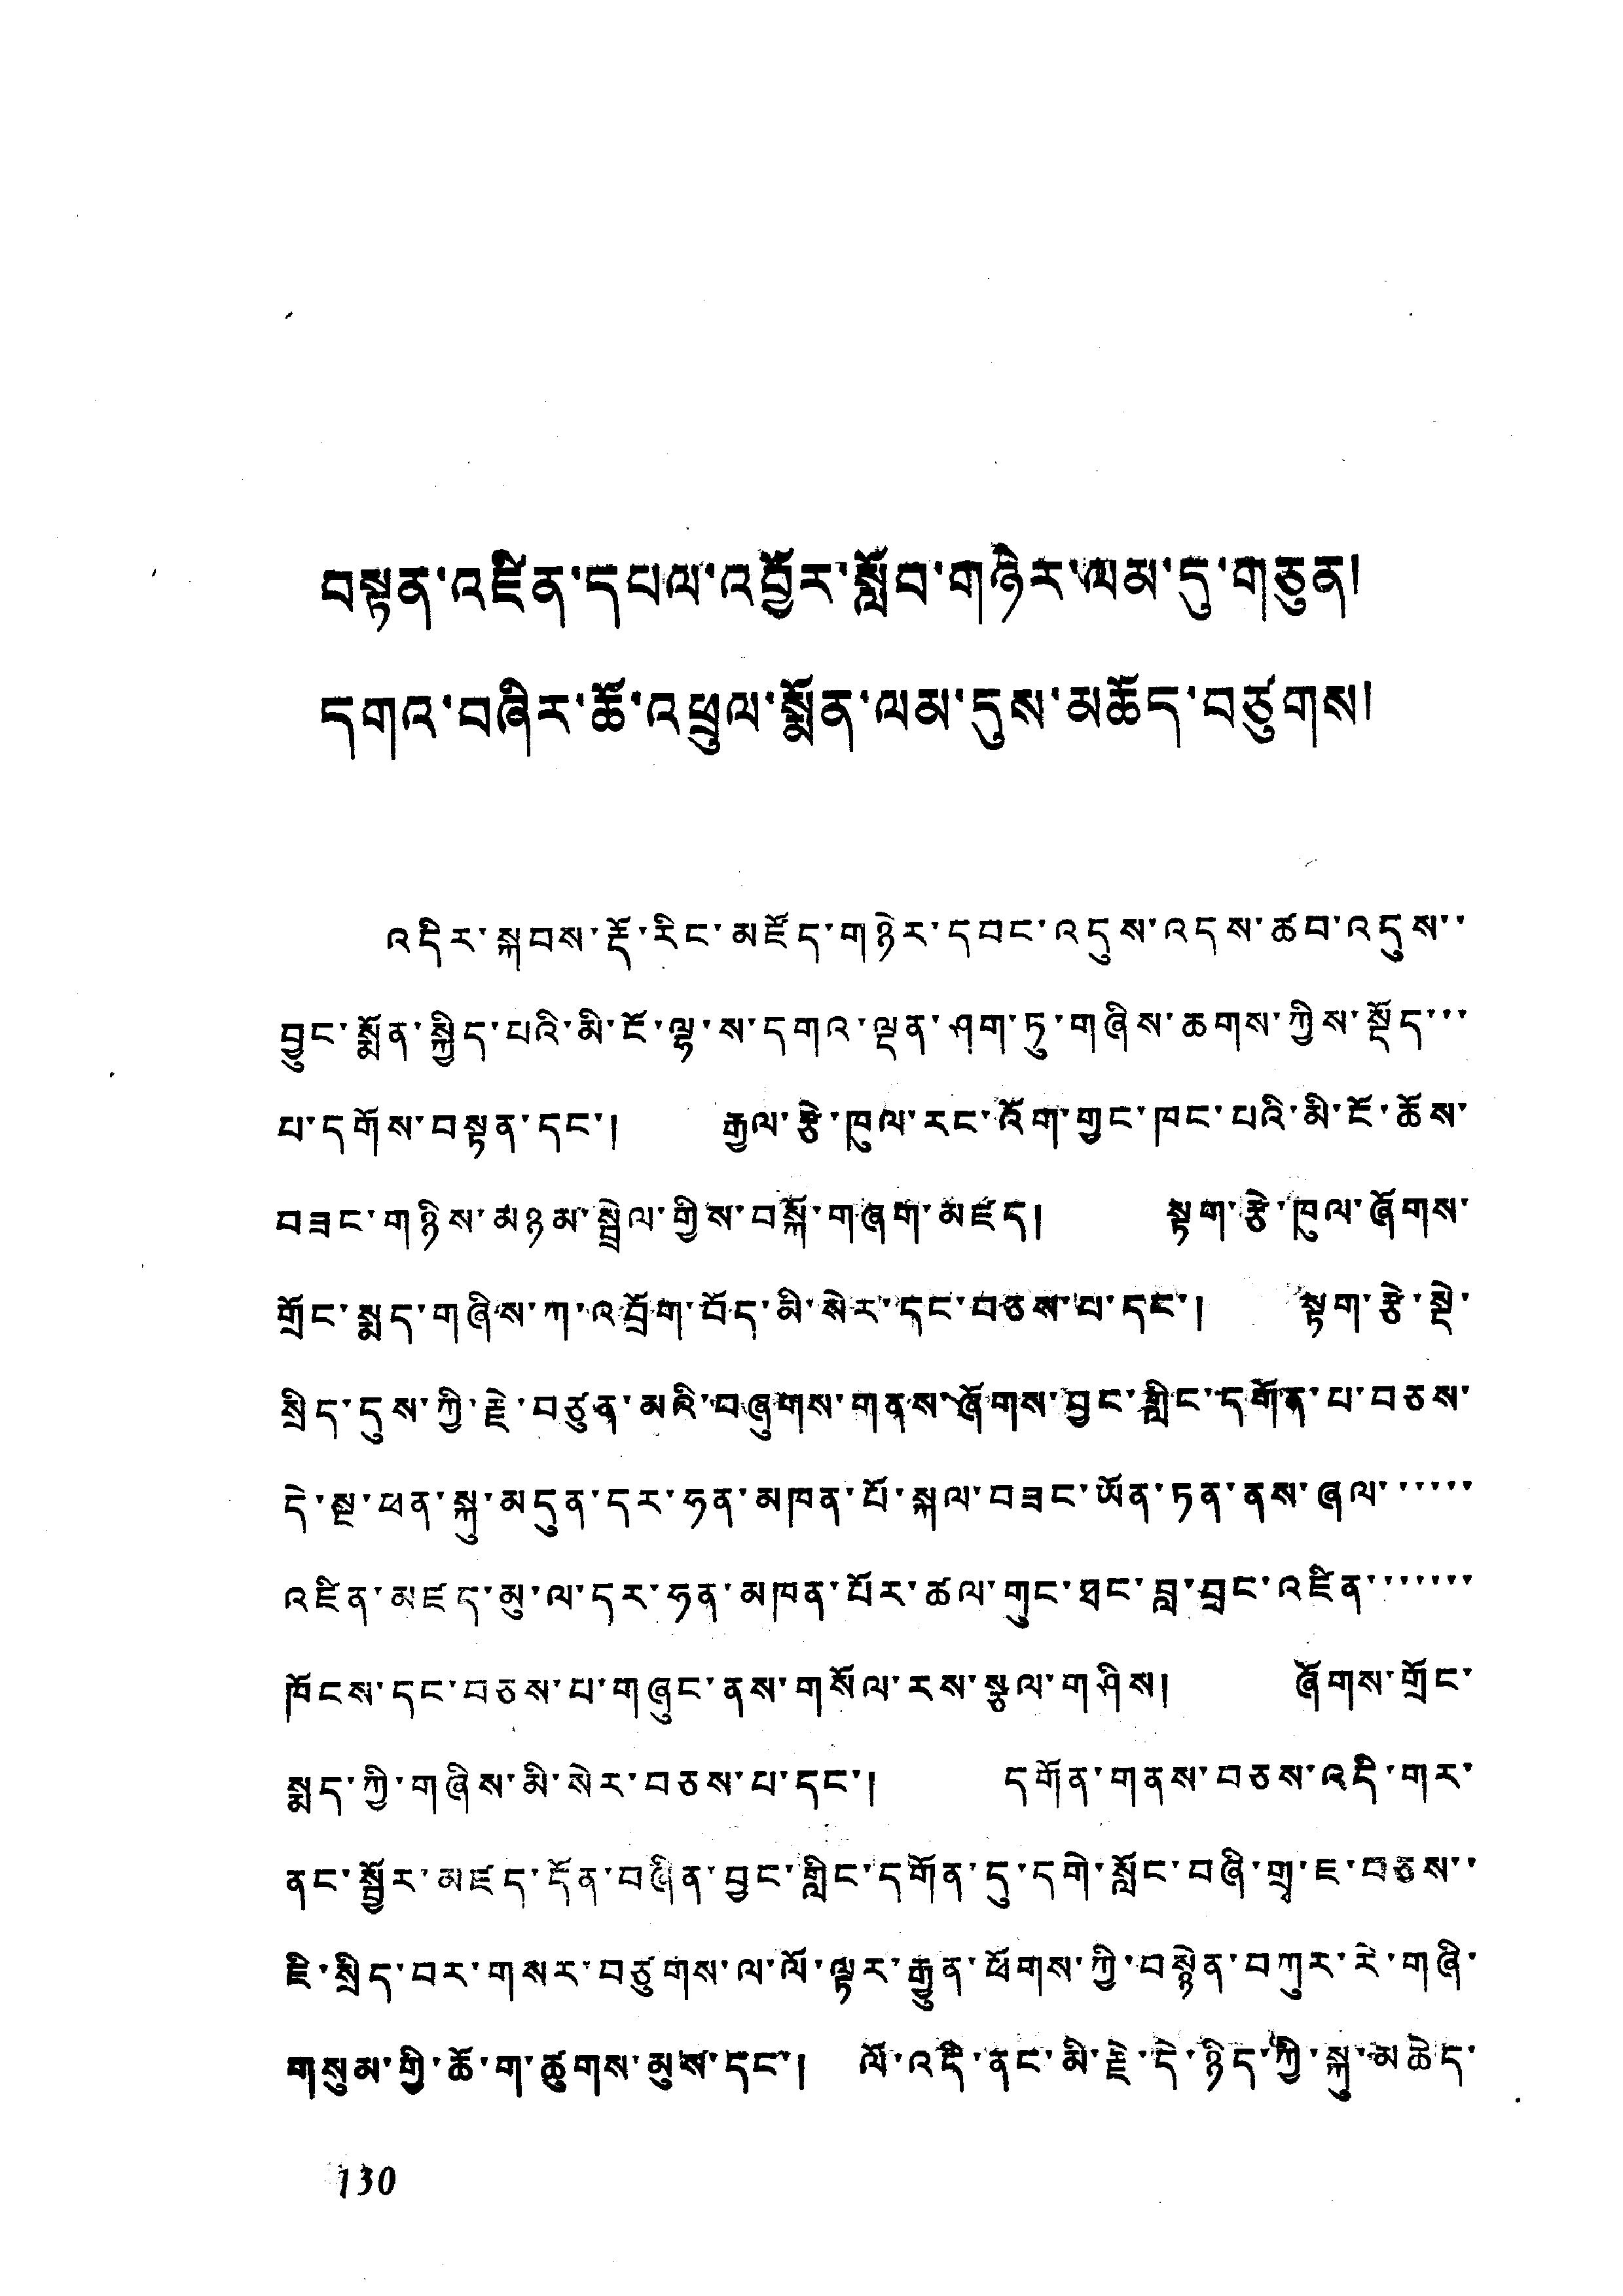བསྟན་འཛིན་དཔལ་འབྱོར་སློབ་གཉེར་ལམ་དུ་གཅུན།
དགའ་བཞིར་ཆོ་འཕྲུལ་སྨོན་ལམ་དུས་མཆོད་བཙུགས།
འདིར་སྐབས་རྡོ་རིང་མཛོད་གཉེར་དབང་འདུས་འདས་ཚབ་འདུས་་
བྱུང་སྨོན་སྐྱིད་པའི་མི་ངོ་ལྷ་ས་དགའ་ལྡན་ཤག་ཏུ་གཞིས་ཆགས་ཀྱིས་སྡོད་་་
པ་དགོས་བསྟན་དང་། རྒྱལ་རྩེ་ཁུལ་རང་འོག་གྱང་ཁང་པའི་མི་ངོ་ཆོས་
བཟང་གཉིས་མཉམ་སྦྲེལ་གྱིས་བསྐོ་གཞག་མཛད། སྟག་རྩེ་ཁུལ་ཞོགས་
གྲོང་སྨད་གཞིས་ཀ་འབྲོག་བོད་མི་སེར་དང་བཅས་པ་དང་། སྟག་རྩེ་སྡེ་
སྲིད་དུས་ཀྱི་རྗེ་བཙུན་མའི་བཞུགས་གནས་ཞོགས་བྱང་གླིང་དགོན་པ་བཅས་
དེ་སྔ་ཕན་སྐུ་མདུན་དར་ཧན་མཁན་པོ་སྐལ་བཟང་ཡོན་ཏན་ནས་ཞལ་་་་་་
འཛིན་མཛད་མུ་ལ་དར་ཧན་མཁན་པོར་ཚལ་གུང་ཐང་བླ་བྲང་འཛིན་་་་་་་
ཁོངས་དང་བཅས་པ་གཞུང་ནས་གསོལ་རས་སྩལ་གཤིས། ཞོགས་གྲོང་
སྨད་ཀྱི་གཞིས་མི་སེར་བཅས་པ་དང་། དགོན་གནས་བཅས་འདི་གར་
ནང་སྦྱོར་མཛད་དོན་བཞིན་བྱང་གླིང་དགོན་དུ་དགེ་སློང་བཞི་གྲྭ་ཇ་བཅས་་
ཇི་སྲིད་བར་གསར་བཙུགས་ལ་ལོ་ལྟར་རྒྱུན་ཕོགས་ཀྱི་བསྙེན་བཀུར་རེ་གཞི་
གསུམ་གྱི་ཆོ་ག་ཚུགས་མུས་དང་། ལོ་འདི་ནང་མི་རྗེ་དེ་ཉིད་ཀྱི་སྐུ་མཆེད་
130
